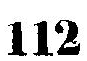112
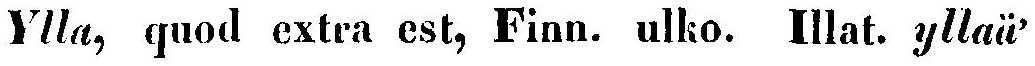Ylla, quod extra est, Finn. ulko. Illat. yllaä'
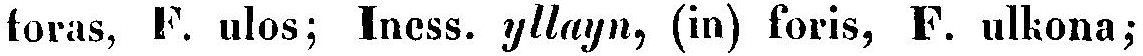foras, F. ulos; Iness. yllayn, (in) foris, F. ulkona;
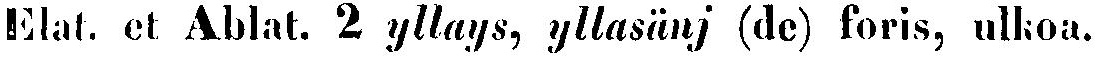Elat. et Ablat. 2 yllays, yllasänj (de) foris, ulkoa.
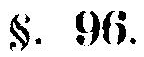§. 96.
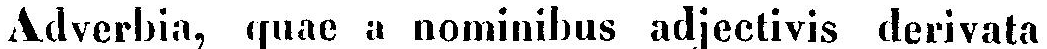Adverbia, quae a nominibus adjectivis derivata
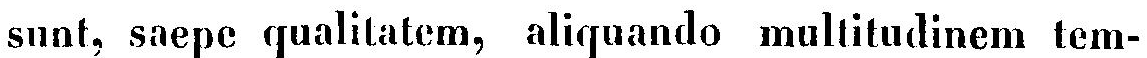sunt, saepe qualitatem, aliquando multitudinem tem-
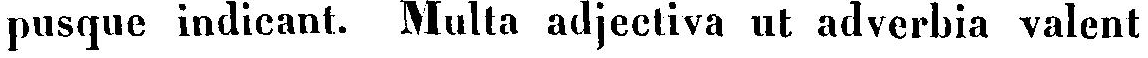pusque indicant. Multa adjectiva ut adverbia valent
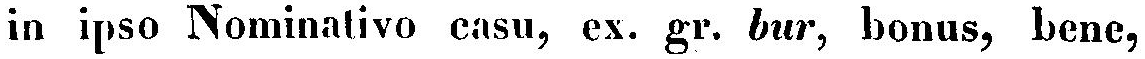in ipso Nominativo casu, ex. gr. bur, bonus, bene,
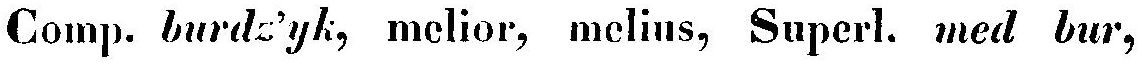Comp. burdz'yk, melior, melius, Superl. med bur,
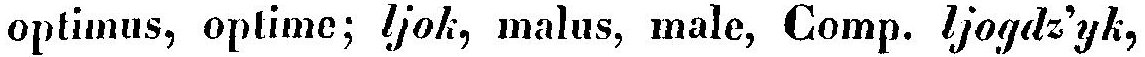optimus, optime; ljok, malus, male, Comp. ljogdz'yk,
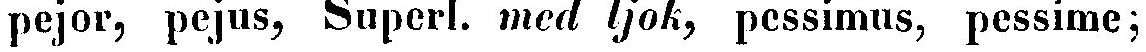pejor, pejus, Superl. med ljok, pessimus, pessime;
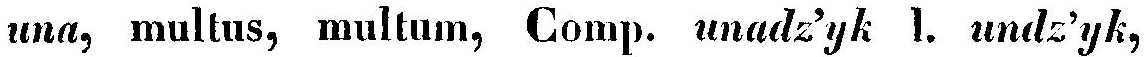una, multus, multum, Comp. unadz'yk l. undz'yk,
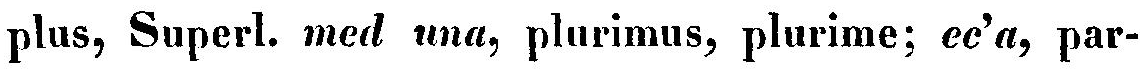plus, Superl. med una, plurimus, plurime; ec'a, par-
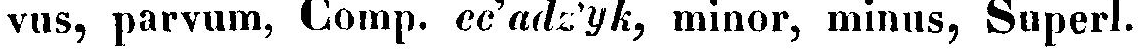vus, parvum, Comp. ec'adz'yk, minor, minus, Superl.
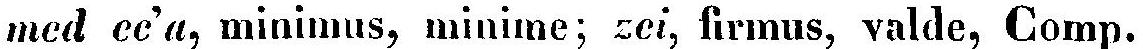med ec'a, minimus, minime; zei, firmus, valde, Comp.
